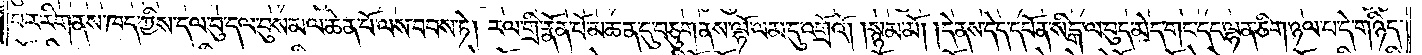པར་རིག་ནས་ཁད་ཀྱིས་དལ་བུ་དལ་བུས་མལ་ཆེན་པོ་ལས་བབས་ཏེ། རལ་གྲི་རྣོན་པོ་མཆན་དུ་བཅུག་ནས་ལྷོ་ལམ་དུ་འགྲོའོ། །སྙམ་མོ། །དེ་ནས་དེད་དཔོན་སིངྒ་ལ་བུད་མེད་གང་དང་ལྷན་ཅིག་ཉལ་བ་དེ་གཉིད་
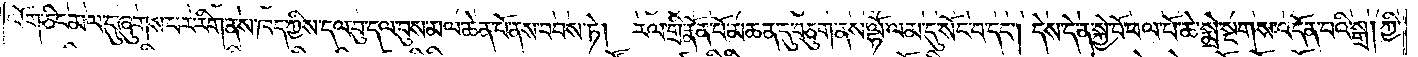ལོག་ཅིང་མལ་དུ་ཞུགས་པར་རིག་ནས་ཁད་ཀྱིས་དལ་བུ་དལ་བུས་མལ་ཆེན་པོ་ནས་བབས་ཏེ། རལ་གྲི་རྣོན་པོ་མཆན་དུ་བཅུག་ནས་ལྷོ་ལམ་དུ་སོང་བ་དང༌། དེས་དེ་ན་སྐྱེ་བོ་ཕལ་པོ་ཆེ་སྨྲེ་སྔགས་འདོན་པའི་སྒྲ། ཀྱི་
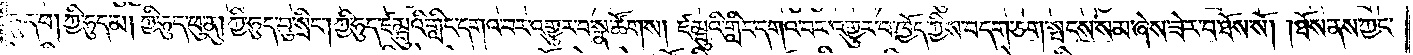ཧུད་ཕ། ཀྱི་ཧུད་མ། ཀྱི་ཧུད་ཕུ་ནུ། ཀྱི་ཧུད་བུ་སྲིང༌། ཀྱི་ཧུད་ཛམྦུའི་གླིང་དགའ་བར་འགྱུར་བ་སྣ་ཚོགས། ཛམྦུའི་གླིང་དགའ་བར་འགྱུར་བ་ཁྱོད་ཀྱིས་བདག་ཅག་སྤངས་སམ་ཞེས་ཟེར་བ་ཐོས་སོ། །ཐོས་ནས་ཀྱང་
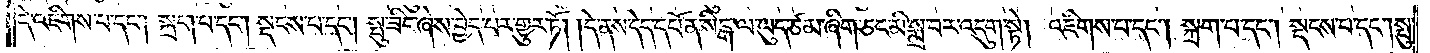དེ་འཇིགས་པ་དང༌། སྐྲག་པ་དང༌། སྡངས་པ་དང༌། སྤུ་ཟིང་ཞེས་བྱེད་པར་གྱུར་ཏོ། །དེ་ནས་དེད་དཔོན་སིངྒ་ལ་ཡུད་ཙམ་ཞིག་ཅང་མི་སྨྲ་བར་འདུག་སྟེ། འཇིགས་པ་དང༌། སྐྲག་པ་དང༌། སྡངས་པ་དང༌། སྤུ་
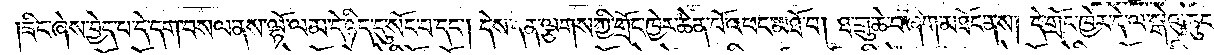ཟིང་ཞེས་བྱེད་པ་དེ་དག་བསལ་ནས་ལྷོ་ལམ་དེ་ཉིད་དུ་སོང་བ་དང༌། དེས་དེ་ན་ལྕགས་ཀྱི་གྲོང་ཁྱེར་ཆེན་པོ་འཕང་མཐོ་བ། ཐ་གྲུ་ཆེ་བ་ཞིག་མཐོང་ནས། དེ་གྲོང་ཁྱེར་དེ་ལ་སྒེའུ་ཆུང་
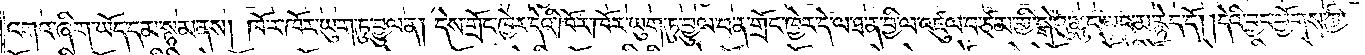འགའ་ཞིག་ཡོད་དམ་སྙམ་ནས། ཁོ་ར་ཁོར་ཡུག་ཏུ་བྱུལ་ན། དེས་གྲོང་ཁྱེར་དེའི་ཁོར་ཁོར་ཡུག་ཏུ་བྱུལ་བ་ན་གྲོང་ཁྱེར་དེ་ལ་ཐ་ན་བྱི་ལ་འཛུལ་བ་ཙམ་གྱི་སྒེའུ་ཆུང་ཡང་མ་རྙེད་དོ། །དེའི་བྱང་ཕྱོགས་ཀྱི་
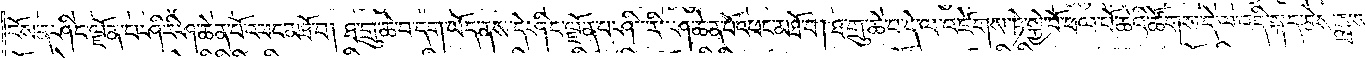ངོས་ན་ཤིང་ལྗོན་པ་ཤི་རི་ཤ་ཆེན་པོ་འཕང་མཐོ་བ། ཐ་གྲུ་ཆེ་བ་དག་ཡོད་ནས་དེ་ཤིང་ལྗོན་པ་ཤི་རི་ཤ་ཆེན་པོ་འཕང་མཐོ་བ། ཐ་གྲུ་ཆེ་བ་དེ་ལ་འཛེགས་ཏེ་སྐྱེ་བོ་ཕལ་པོ་ཆེའི་ཚོགས་དེ་ལ་འདི་སྐད་ཅེས་སྨྲས་
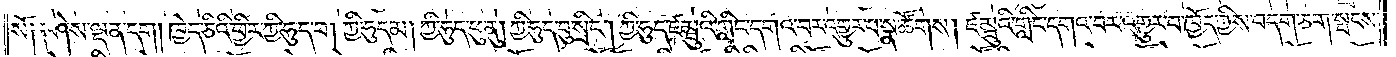སོ༑ ༑ཤེས་ལྡན་དག། ཁྱེད་ཅིའི་ཕྱིར་ཀྱི་ཧུད་ཕ། ཀྱི་ཧུད་མ། ཀྱི་ཧུད་ཕུ་ནུ། ཀྱི་ཧུད་བུ་སྲིང༌། ཀྱི་ཧུད་ཛམྦུའི་གླིང་དགའ་བར་འགྱུར་པ་སྣ་ཚོགས། ཛམྦུའི་གླིང་དགའ་བར་འགྱུར་བ་ཁྱོད་ཀྱིས་བདག་ཅག་སྤངས་
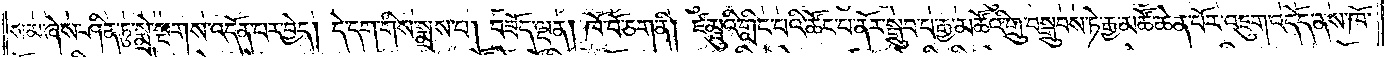སམ་ཞེས་ཤིན་ཏུ་སྨྲེ་སྔགས་འདོན་པར་བྱེད། དེ་དག་གིས་སྨྲས་པ། བཟོད་ལྡན། ཁོ་བོ་ཅག་ནི། ཛམྦུའི་གླིང་པའི་ཚོང་པ་ནོར་སྒྲུབ་པ་རྒྱ་མཚོའི་གྲུ་བསྒྲུབས་ཏེ་རྒྱ་མཚོ་ཆེན་པོར་འཇུག་འདོད་ནས་ཁོ་
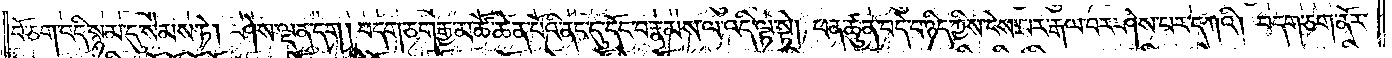བོ་ཅག་འདི་སྙམ་དུ་སེམས་ཏེ། ཤེས་ལྡན་དག། བདག་ཅག་རྒྱ་མཚོ་ཆེན་པོའི་ནང་དུ་དོང་བ་རྣམས་ལ་འདི་ལྟ་སྟེ། ཕན་ཚུན་བདེ་བ་ཉིད་ཀྱིས་ངེས་པར་རྒལ་བར་ཤེས་པར་དཀའི། བདག་ཅག་ནོར་
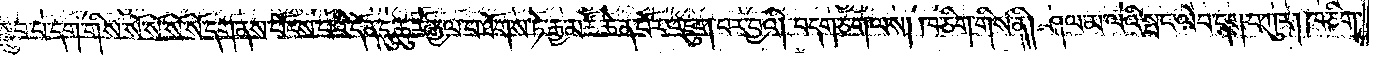སྒྲུབ་པ་དག་གིས་སོ་སོ་སོ་སོ་དག་ནས་ཕོངས་པའི་དོན་དུ་ཆུར་རྐྱལ་པ་ཐོགས་ཏེ་རྒྱ་མཚོ་ཆེན་པོར་འཇུག་པར་བྱའི། བདག་ཅག་ལས། ཁ་ཅིག་གིས་ནི། ཤལ་མ་ལའི་སྤང་ལེབ་དག་བཀུར། ཁ་ཅིག་
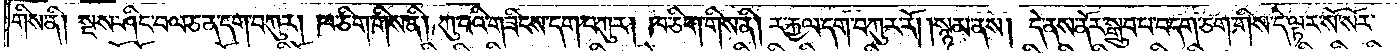གིས་ནི། སྔས་ཤིང་བལ་ཅན་དག་བཀུར། ཁ་ཅིག་གིས་ནི། ཀུ་བའི་གཟིངས་དག་བཀུར། ཁ་ཅིག་གིས་ནི། ར་རྐྱལ་དག་བཀུར་རོ། །སྙམ་ནས། དེ་ནས་ནོར་སྒྲུབ་པ་བདག་ཅག་གིས་དེ་ལྟར་སོ་སོར་
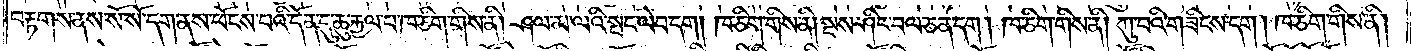བརྟགས་ནས་སོ་སོ་དག་ནས་ཕོངས་པའི་དོན་དུ་ཆུ་རྐྱལ་པ་ཁ་ཅིག་གིས་ནི། ཤལ་མ་ལའི་སྤང་ལེབ་དག །ཁ་ཅིག་གིས་ནི། སྔས་ཤིང་བལ་ཅན་དག །ཁ་ཅིག་གིས་ནི། ཀུ་བའི་གཟིངས་དག། ཁ་ཅིག་གིས་ནི།
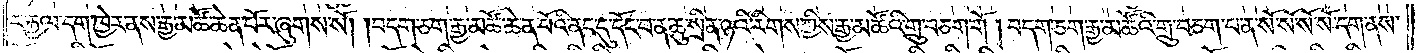ར་རྐྱལ་དག་ཁྱེར་ནས་རྒྱ་མཚོ་ཆེན་པོར་ཞུགས་སོ། །བདག་ཅག་རྒྱ་མཚོ་ཆེན་པོའི་ནང་དུ་དོང་བ་ན་ཆུ་སྲིན་ཉའི་རིགས་ཀྱིས་རྒྱ་མཚོའི་གྲུ་བཅག་གོ །བདག་ཅག་རྒྱ་མཚོའི་གྲུ་བཅག་པ་ན་སོ་སོ་སོ་སོ་དག་ནས་
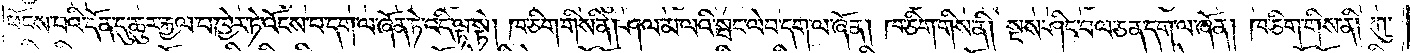ཕོངས་པའི་དོན་དུ་ཆུར་རྐྱལ་པ་ཁྱེར་ཏེ་འོངས་པ་དག་ལ་ཞོན་ཏེ་འདི་ལྟ་སྟེ། ཁ་ཅིག་གིས་ནི། ཤལ་མ་ལའི་སྤང་ལེབ་དག་ལ་ཞོན། ཁ་ཅིག་གིས་ནི། སྔས་ཤིང་བལ་ཅན་དག་ལ་ཞོན། ཁ་ཅིག་གིས་ནི། ཀུ་
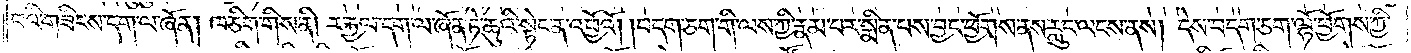བའི་གཟིངས་དག་ལ་ཞོན། ཁ་ཅིག་གིས་ནི། ར་རྐྱལ་དག་ལ་ཞོན་ཏེ་ཆུའི་སྟེང་ན་འཕྱོའོ། །བདག་ཅག་གི་ལས་ཀྱི་རྣམ་པར་སྨིན་པས་བྱང་ཕྱོགས་ནས་རླུང་ལངས་ནས། དེས་བདག་ཅག་ལྷོ་ཕྱོགས་ཀྱི་
